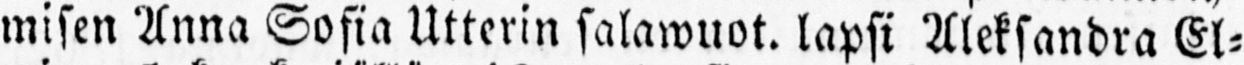misen Anna Sofia Utterin salawuot. lapsi Aleksandra El-
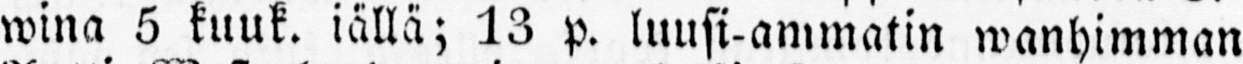wina 5 kuuk. iällä; 13 p. luusi-ammatin wanhimman
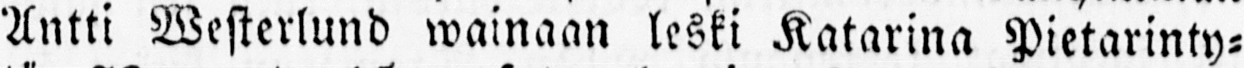Antti Westerlund wainaan leski Katarina Pietarinty-
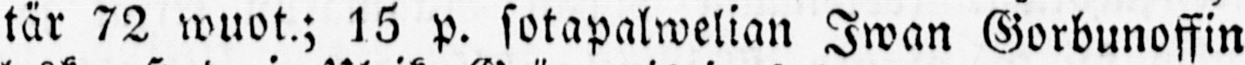tär 72 wuot.; 15 p. sotapalwelian Iwan Gorbunoffin
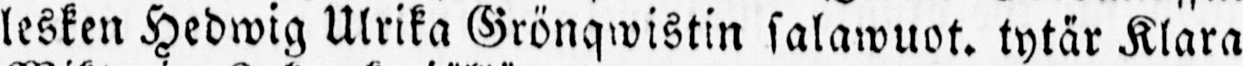lesken Hedwig Ulrika Grönqwistin salawuot. tytär Klara
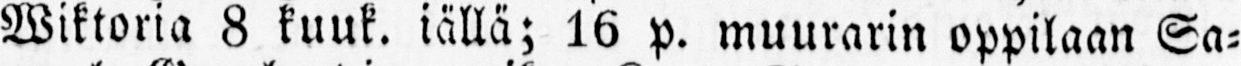Wiktoria 8 kuuk. iällä; 16 p. muurarin oppilaan Sa-
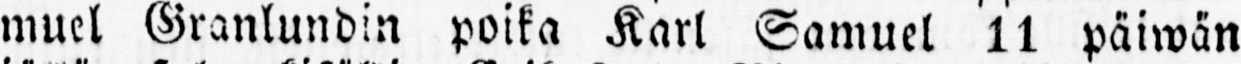muel Granlundin poika Karl Samuel 11 päiwän
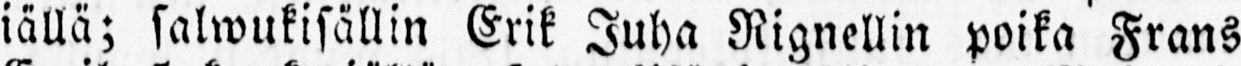iällä; salwukisällin Erik Juha Rignellin poika Frans
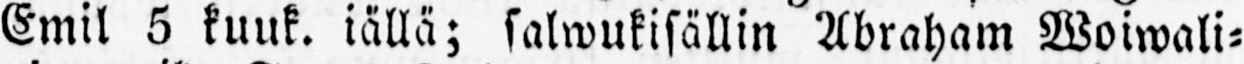Emil 5 kuuk. iällä; salwukisällin Abraham Woiwali-
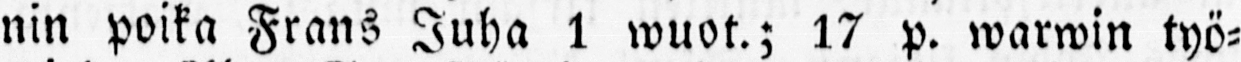nin poika Frans Juha 1 wuot.; 17 p. warwin työ-
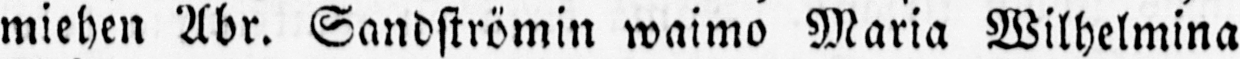miehen Abr. Sandströmin waimo Maria Wilhelmina
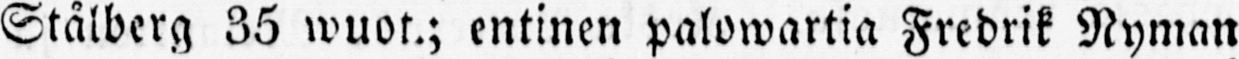Stålberg 35 wuot.; entinen palowartia Fredrik Nyman
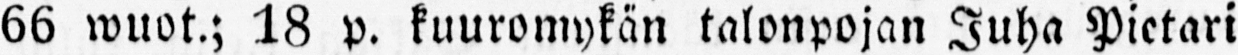66 wuot.; 18 p. kuuromykän talonpojan Juha Pietari
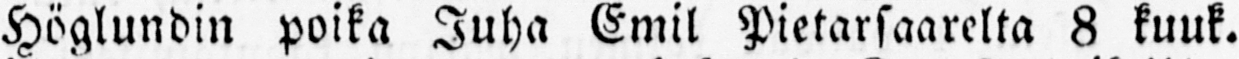Höglundin poika Juha Emil Pietarsaarelta 8 kuuk.
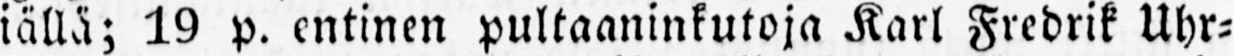iällä; 19 p. entinen pultaaninkutoja Karl Fredrik Uhr-
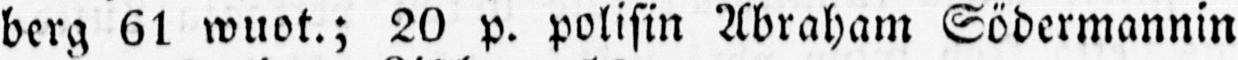berg 61 wuot.; 20 p. polisin Abraham Södermannin
